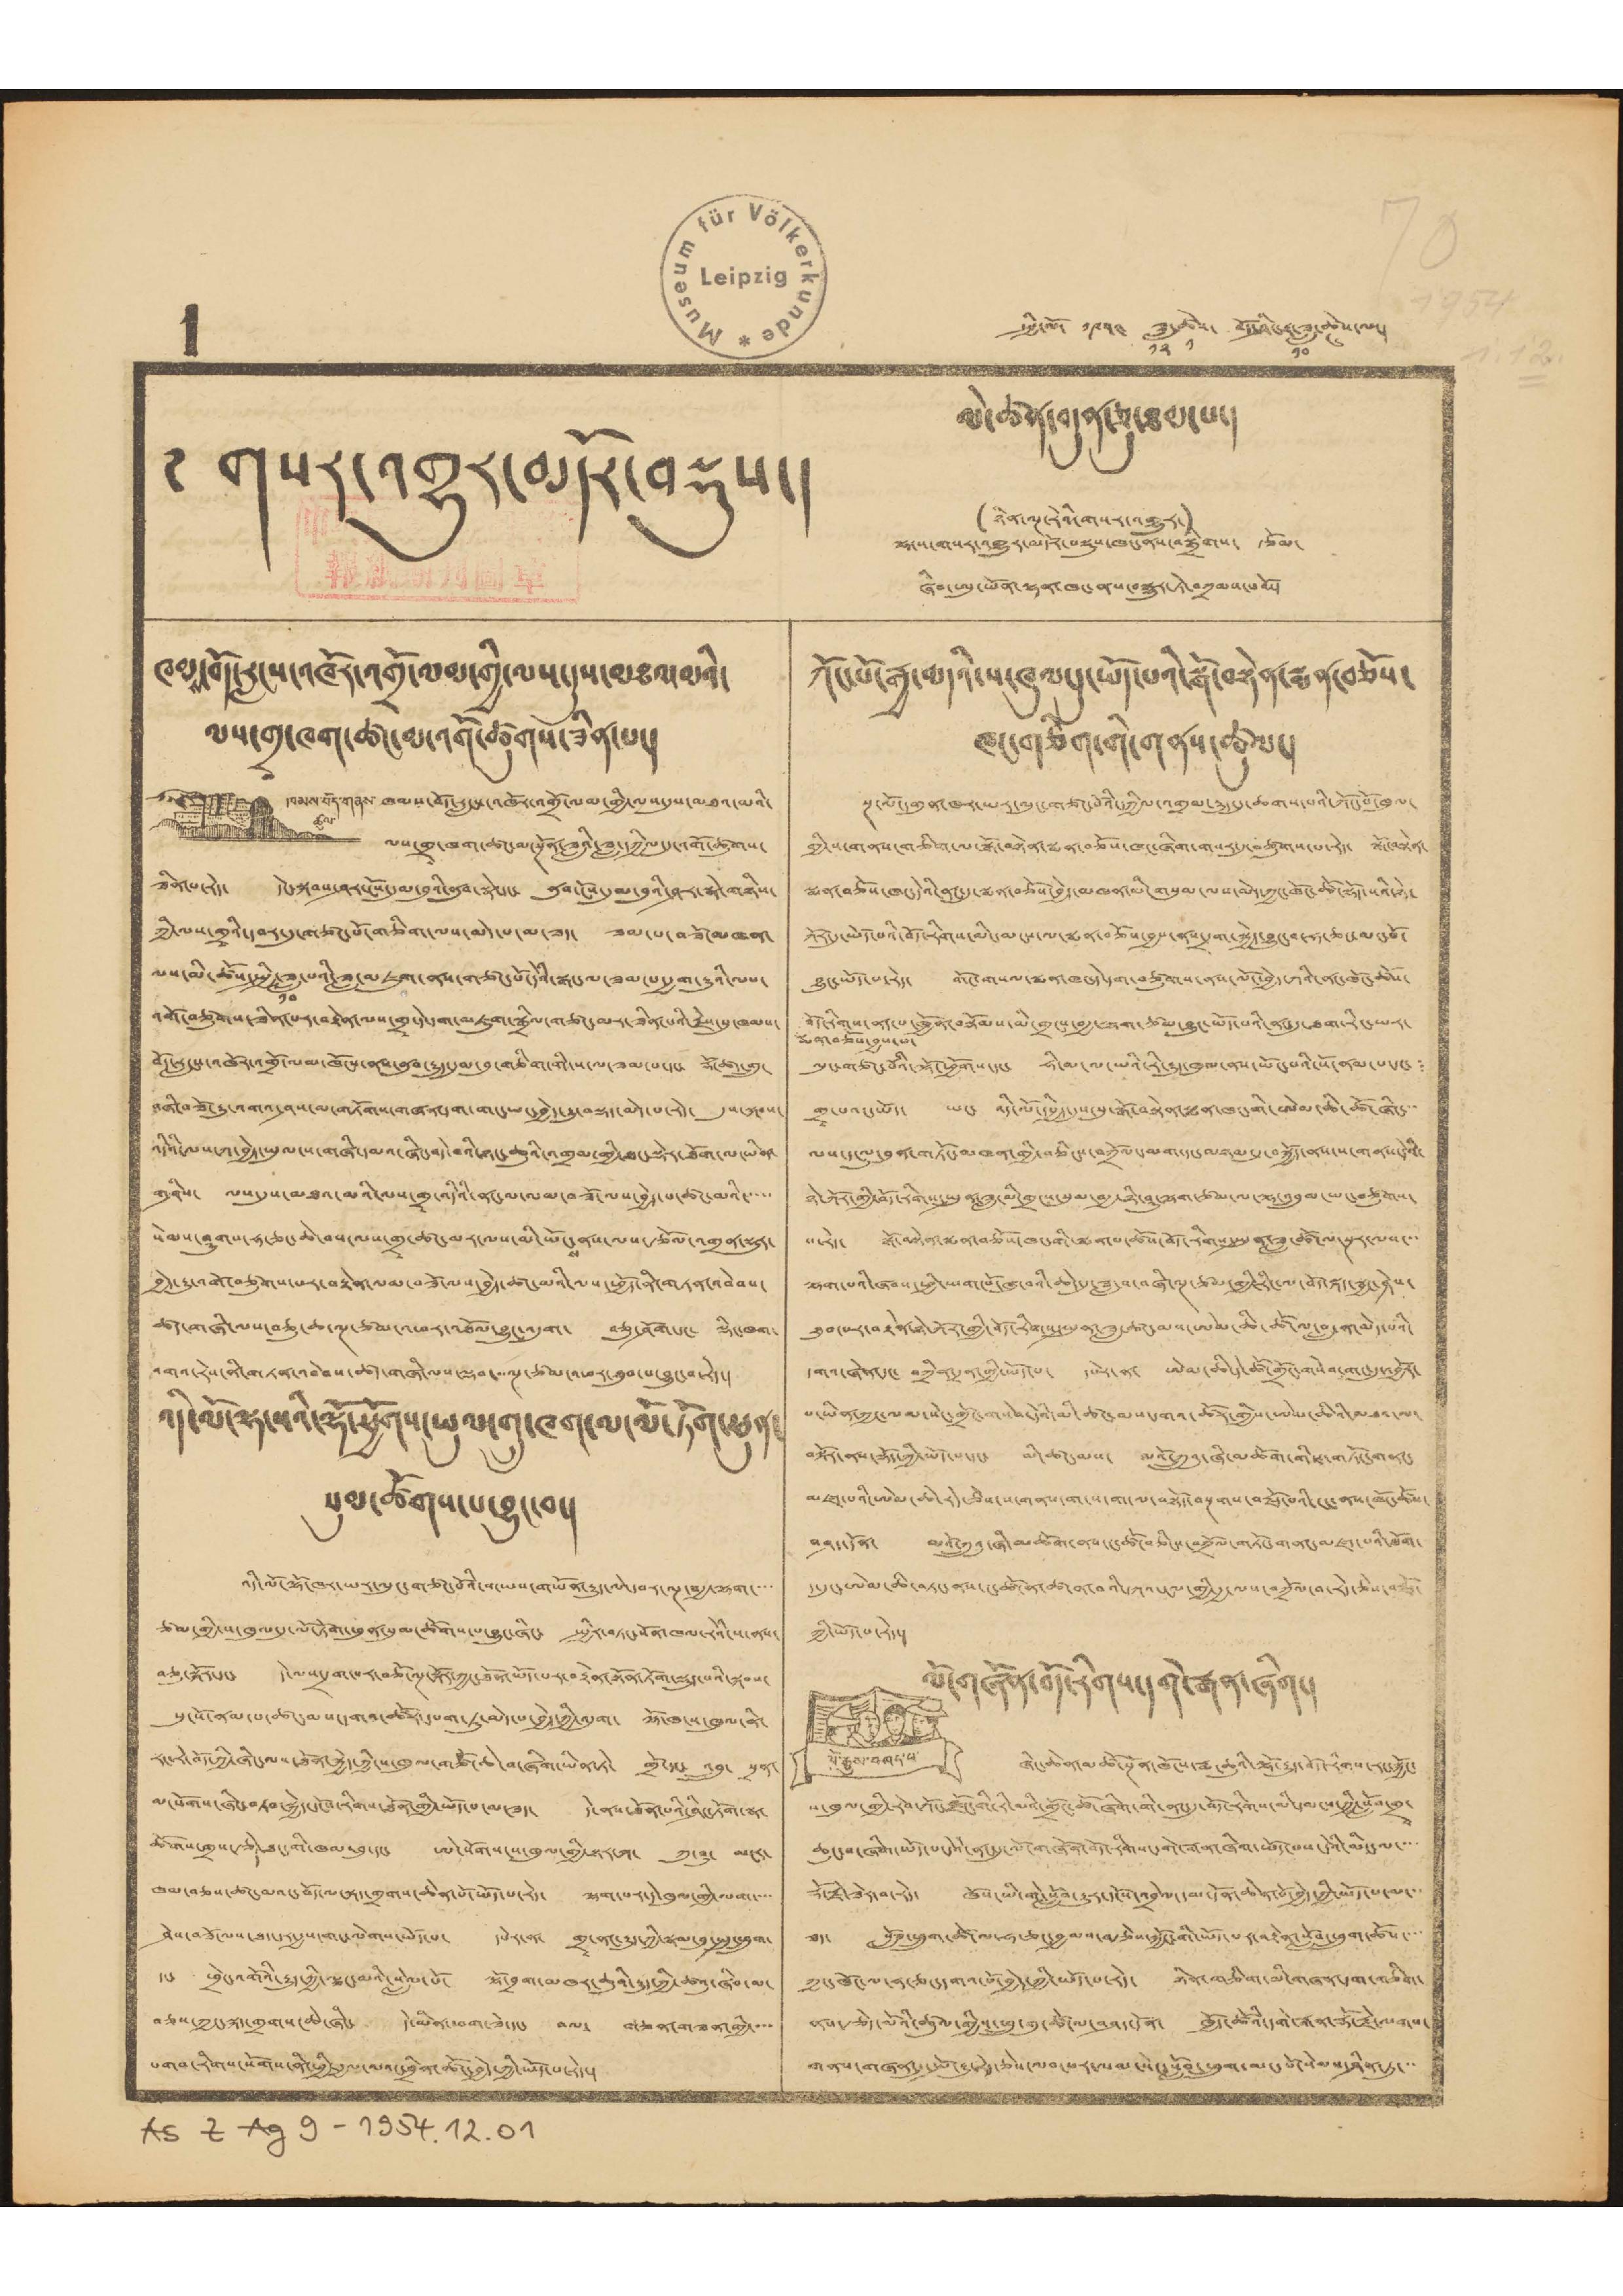༡ སྤྱི་ལོ་ ༡༩༤༥ ཟླ་
༡༢
ཚེས་
༡
བོད་ཤིང་ཟླ་
༡༠
ཚེས་
༦
ལ་།
༅ གསར་འགྱུར་མདོར་བསྡུད་།
ལེ་ཚན་བདུན་ཅུ་ཐམ་པ་།
(ཉིན་ལྔ་རེའི་གསར་འགྱུར་)
ལྷ་ས་གསར་འགྱུར་མདོར་བསྡུས་ཁང་ནས་བསྒྲིགས་ རྩོམ་
ཞིབ་ཨུ་ཡོན་ལྷན་ཁང་ནས་བསྒྱུར་ཏེ་བཀྲམས་པའོ་།
ཁམས་བོད་རླངས་འཁོར་འགྲོ་ལམ་གྱི་ལས་དུས་མཐའ་མའི་
ལས་གྲྭ་ཁག་ཚང་མ་འགོ་ཚུགས་ཟིན་པ་།
ཁམས་བོད་གནས་
ཚུལ་
ཁམས་བོད་རླངས་འཁོར་འགྲོ་ལམ་གྱི་ལས་དུས་མཐའ་མའི་
ལས་གྲྭ་ཁག་ཚང་མ་སྔོན་ཟླའི་ཟླ་དཀྱིལ་དུ་འགོ་ཚུགས་
ཟིན་པ་རེད་ དེང་སྐབས་ཤར་ངོས་དུམ་བུའི་ནུབ་སྣེ་དང་ ནུབ་ངོས་དུམ་བུའི་ཤར་སྣེ་གཉིས་
ཀྱི་ལས་གྲྭའི་དབར་དུ་གཙང་པོ་གཅིག་ལས་མེད་པ་མ་ཟད་ ཟམ་པ་བཟོ་མཁན་
ལས་མི་ཚོས་སྤྱི་ཟླ་
༡༠
པའི་ཟླ་མཇུག་ནས་གཙང་པོ་དེའི་སྒང་ལ་ཟམ་པ་རྒྱག་རྒྱུའི་ལས་
འགོ་བཙུགས་ཟིན་པར་བརྟེན་ལས་གྲྭ་དེ་དག་མཇུག་སྒྲིལ་གཙང་མར་ཟིན་པའི་རྗེས་སུ་ཁམས་
བོད་རླངས་འཁོར་འགྲོ་ལམ་ཁོངས་ནས་ནུབ་རྒྱུད་དུམ་བུ་གཅིག་གི་ས་ལ་ཟམ་པ་དང་ རྡོང་ཚད་གྲུ་
བཞི་བཟོ་རྒྱུ་འགའ་ཤས་མ་གཏོགས་གཞན་དག་གང་ཡང་བྱེད་རྒྱུ་བསྡད་མེད་པ་རེད་ དུས་སྐབས་
འདིའི་ལས་ཀ་བྱེད་ཡུལ་ས་གཞི་དམའ་ཞིང་བདེ་བའི་ཉང་ཆུའི་འགྲམ་གྱི་ཐང་སྡེར་ཐོག་ལ་ཡིབ་
གཤིས་ ལས་དུས་མཐའ་མའི་ལས་གྲྭ་འདིའི་ནང་མ་ལམ་བཟོ་ལས་བྱེད་པ་ཚང་མའི་་་་་
སེམས་ཤུགས་ཧ་ཅང་ཆེ་བས་ལས་གྲྭ་ཚང་མར་ལས་མི་
ས་
་ནས་ལས་རྩོལ་འགྲན་སྡུར་
བྱེད་རྒྱུ་འགོ་བཙུགས་པར་བརྟེན་ལམ་བཟོ་ལས་བྱེད་ཚང་མའི་ལས་ཕྱོད་ནི་གཏན་འབེབས་
ཚད་གཞི་ལས་བཅུ་ཆ་ལྔ་ཙམ་འཕར་འཐོལ་བྱུང་འདུག་ བཅུ་ཤོག་དང་ ལྡིང་ཁག་
འགའ་རེས་ནི་གཏན་འབེབས་ཚད་གཞི་ལས་ལྡབ་ལྔ་ཙམ་འཕར་ཐུབ་པ་བྱུང་བ་རེད་།
འདི་ལོ་ལྷ་སའི་ལྷོ་ཕྱོགས་ཡུལ་གྲུ་ཁག་ལ་ལོ་ཏོག་ཕུན་
སུམ་ཚོགས་པ་བྱུང་བ་།
འདི་ལོ་ལྷོ་ཁར་ཡར་ལུང་གཙང་པོའི་གཡས་གཡོན་རྒྱུད་ལེ་དབར་ལྔ་བརྒྱ་ལྷག་་་་
ཙམ་གྱི་ས་ཁུལ་དུ་ལོ་ཏོག་ཕུན་སུམ་ཚོགས་པ་བྱུང་ཞིང་ སྤྱིར་བཏང་སོན་ཁལ་རེའི་ས་ནས་
བཅུ་སྐོར་དང་ དེ་ལས་དྲག་པར་བཅོ་ལྔ་སྐོར་ཀྱང་ཐོན་ཡོད་པར་བརྟེན་སྟོན་ཏོག་སྡུད་པའི་སྐབས་
སུ་སོ་ནམ་པ་ཚང་མས་དགའ་ཚོར་དཔག་ཏུ་མེད་པ་བྱེད་ཀྱི་འདུག་ ལྷོ་ཁ་ས་ཁུལ་ནི་
རང་རེ་བོད་ཀྱི་ཞིང་ལས་ཐོན་སྐྱེད་ཀྱི་ས་ཁུལ་གཙོ་ཆེ་བ་ཞིག་ཡིན་ཏེ་ གྲོ་དང་ འབྲུ་ སྲན་
མ་སོགས་ཞིང་བཏབ་སྐྱེད་དངོས་རིགས་ཐོན་གྱི་ཡོད་པ་མ་ཟད་ དེ་ནས་ཐོན་པའི་ཤིང་ཏོག་སྣ་
ཚོགས་གྲས་རྩེ
་ཐང་གི་ཁམ་བུ་དང་ ཨེ་སོགས་ས་ཁུལ་གྱི་སྟར་ཀ་ ཀུ་ཤུ་ མངར་
ད
ཁམ་བཅས་ཚང་མའང་བོད་ལ་སྐད་གྲགས་ཆེན་པོ་ཡོད་པ་རེད་ ལྷག་པར་དེ་ཁུལ་གྱི་ལག་་་་
ཤེས་བཟོ་ལས་ཐད་དར་རྒྱས་གང་ལེགས་ཡོད་ དཔེར་ན་ གྲྭ་ན་རྒྱུད་ཀྱི་སྣམ་བུ་སྤུ་ཕྲུག་
དང་ ཕྲེང་འགོའི་རྒྱུད་ཀྱི་ལྕང་མའི་སླེལ་པོ་ ལྷོ་བྲག་མཁར་ཆུའི་རྒྱུད་ཀྱི་ཚའུ་ཞིབ་མ་
བཅས་ཀྱང་སྐད་གྲགས་ཆེ་ཞིང་ དེ་མིན་བག་ཟེ་དང་ བལ་ གཅན་གཟན་གྱི་་་་
པགས་རིགས་སོགས་ནི་ཕྱི་རྒྱལ་ལའང་ཕྲིན་ཚོང་བྱེད་ཀྱི་ཡོད་ཨཔ་རེད་།
ཀོང་པོ་རྒྱ་མདའི་ས་ཁུལ་དུ་ཡོད་པའི་སྒོ་བསྟེན་སྨན་བཅོས་
ཁང་གཅིག་གི་གནས་ཚུལ་།
སྔ་ལོ་དགུན་ཡར་ལུང་གཙང་པོའི་དཀྱིལ་འགྲམ་རྒྱུད་དུ་ཆགས་པའི་ཀོང་པོ་ཁུལ་
གྱི་ས་གནས་གཅིག་ལ་སྒོ་བསྟེན་སྨན་བཅོས་ཁང་ཞིག་གསར་དུ་བཙུགས་པ་རེད་ སྒོ་བསྟེན་
སྨན་བཅོས་ཁང་དེའི་ནང་དུ་སྨན་བཅོས་བྱེད་མཁན་མི་གསུམ་ལས་མེད་ཀྱང་ཁོང་ཚོ་སྡོད་སའི་ཉེ་
ཀོར་དུ་ཡོད་པའི་བོད་རིགས་མི་དམངས་ལ་སྨན་བཅོས་བྱས་ནས་དྲག་སྐྱེད་བྱུང་བ་ཧ་ཅང་མང་པོ་
བྱུང་ཡོད་པ་རེད་ གོང་གསལ་སྨན་ཁང་དེ་དག་བཙུགས་ནས་ལོ་བྱེད་ཀའི་ནང་ཁོང་ཚོས་
སྨན་བཅོས་བྱས་པ་
བོད་རིགས་ནད་པ་ཁྱོན་བསྡོམས་མི་གྲངས་བརྒྱ་ལྷག་ཙམ་བྱུང་ཡོད་པའི་ནང་དུ་ཐག་རིང་ཡར་
ལུང་གཙང་པོའི་ལྷོ་ཕྱོགས་དང་ ཧི་མ་ལ་ཡའི་རི་རྒྱུད་ཁུལ་ནས་ཡོང་པའི་སོ་ནམ་པ་དང་
གྲྭ་པའང་ཡོད་ ཡང་ འདི་ལོ་དཔྱིད་དུས་སུ་སྒོ་བསྟེན་སྨན་ཁང་གི་ཨེམ་ཆི་ཚོ་ཞིང་་་
ལས་དངུལ་བུན་གཏོང་མཁན་གྱི་བཅིངས་བཀྲོལ་དམག་དང་མཉམ་དུ་བསྐྱོད་ན་ས་གནས་དེའི་
ཉེ་ཀོར་གྱི་བོད་རིགས་སྤུན་ཟླ་མི་གྲངས་སུམ་བརྒྱ་ཉི་ཤུ་ལྷག་ཙམ་ལ་ལྷ་འབྲུམ་ཡང་བཙུགས་
པ་རེད་ སྒོ་བསྟེན་སྨན་བཅོས་ཁང་གི་སྨན་པ་ཚོས་བོད་རིགས་སྤུན་ཟླ་ཚོ་ལ་སྔར་ལས་་་
ལྷག་པའི་ཞབས་ཕྱི་ཡག་པོ་ཞུ་བའི་ཆེད་དུ་ཟླ་བ་བཞི་ལྔ་ཙམ་གྱི་རིང་ལ་བོད་སྐད་སྦྱང་ཤེས་
ཐུབ་པར་བརྟེན་ཉེ་ཀོར་གྱི་བོད་རིགས་སྤུན་ཟླ་ཚང་མས་ཨེམ་ཆི་ཚོ་ལ་བླ་ན་མེད་པའི
དགའ་ཞེན་དང་ བཀྲིན་དྲན་གྱི་ཡོད་པ་ དཔེར་ན་ ཨེམ་ཆི་དེ་ཚོ་གྲོང་གསེབ་གང་དུ་འབྱོར་
པ་ཡིན་ཀྱང་ལམ་སེང་གྲོང་གསེབ་དེའི་མི་ཚང་མས་དགའ་ཚོར་གྱིས་ཨེམ་ཆིའི་མཐའ་མ་
བསྐོར་ནས་སྡོད་ཀྱི་ཡོད་པ་དང་ མི་ཚང་མས་ མའོ་ཀྲུའུ་ཞི་མཆོག་གི་གཏོང་གནང་
མཛད་པའི་ཨེམ་ཆེ་རེད་ཅེས་ས་གནས་ག་ས་ག་ལ་བསྟོད་བསྔགས་བརྗོད་པའི་ངང་ནས་ཁོང་ཚོས་
བཤད་དོན་ མའོ་ཀྲུའུ་ཞི་མཆོག་ནས་ང་ཚོ་བཅིངས་བཀྲོལ་གནང་མཛད་པའི་ཐོག་
ད་དུང་ཨེམ་ཆི་བཏང་ནས་ང་ཚོ་ན་ཚ་ན་བའི་དཀའ་ངལ་གྱི་རྒྱ་ལས་བཀྲོལ་བ་རེད་ཅེས་བཟོ་
ཀྱི་ཡོད་པ་རེད་།
ལོ་གཞོན་བོད་རིགས་དགེ་རྒན་ཞིག་།
ལོ་རྒྱུས་བཤད་པ་
ཞིང་ཆེན་མཚོ་སྔོན་ཁོངས་རྨ་ཆུའི་ལྷོ་རྒྱུད་བོད་རིགས་རང་སྐྱོང་
ས་ཁུལ་གྱི་རེབ་ཀོང་རྫོང་གི་རི་མའི་གྲོང་ཚོ་ཞིག་གི་ནང་དུ་བོད་རིགས་མི་དམངས་ཀྱི་སློབ་གྲྭ་
ཆུང་བ་ཞིག་ཡོད་པ་དེའི་ནང་དུ་ལོ་གཞོན་བོད་རིགས་དགེ་རྒན་ཞིག་ཡོད་པས་དེའི་མིང་ལ་་་་
རྡོ་རྗེ་ཟེར་བ་རེད་ ཁོས་ཡི་གེ་སློབ་རྒྱུར་དངོས་འབྲེལ་དམ་དོན་ཆེན་པོ་བྱེད་ཀྱི་ཡོད་པ་མ་་་
ཟད་ སློབ་ཕྲུག་ཚེ་ལ་ཧ་ཅང་བྱམས་བརྩེས་སྐྱོང་གི་ཡོད་པར་བརྟེན་སློབ་ཕྲུག་ཚོས་་་་
ཀྱང་ཁོང་ལ་ཧ་ཅང་དགའ་བོ་བྱེད་ཀྱི་ཡོད་པ་རེད་ ཉིན་གཅིག་མི་གཞན་དག་གཅིག་
ནས་རྩེད་མོའི་ཚུལ་གྱིས་ཕྲུ་གུ་ཚེ་ལ་བཤད་དོན་ ཁྱོད་ཚོའི་དགེ་རྒན་རྡོ་རྗེ་ལགས་
གནས་གཞན་དུ་སྤོ་རྒྱུ་རེད་ཅེས་ལབ་པར་ལམ་སེང་སློབ་ཕྲུག་མང་པོ་སེམས་ཤིན་ཏུ་་་
